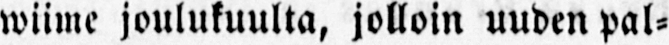wiime joulukuulta, jolloin uuden pal-
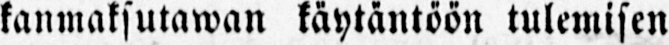kanmaksutawan käytäntöön tulemisen
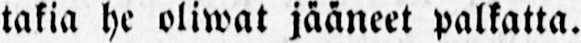takia he oliwat jääneet palkatta.
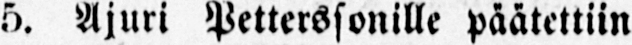5. Ajuri Petterssonille päätettiin
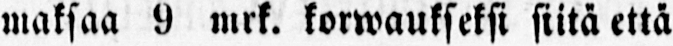maksaa 8 mrk. korwaukseksi siitä että
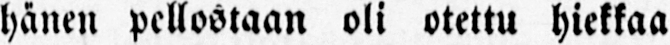hänen pellostaan oli otettu hiekkaa
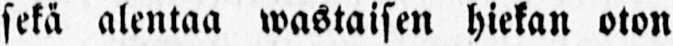sekä alentaa wastaisen hiekan oton
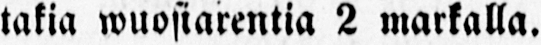takia wuosiarentia 2 markalla.
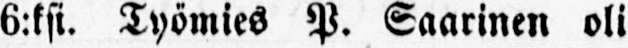6:ksi. Työmies P. Saarinen oli
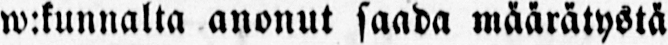w:kunnalta anonut saada määrätystä
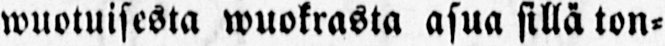wuotuisesta wuokrasta asua sillä ton-
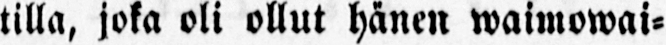tilla, joka oli ollut hänen waimowai-
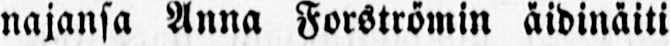najansa Anna Forströmin äidinäiti
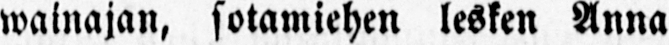wainajan, sotamiehen lesken Anna
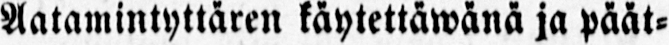Aatamintyttären käytettämänä ja päät-
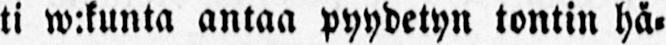ti w:kunta antaa pyydetyn tontin hä-
